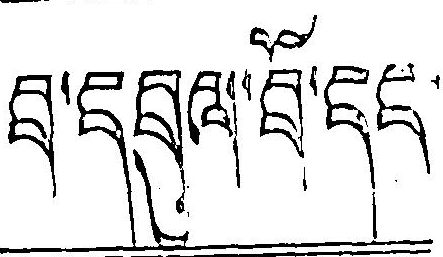བ་དབུལ་བོ་དང་
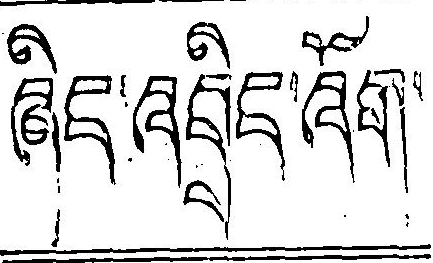ཞིང་འབྲིང་འོག་
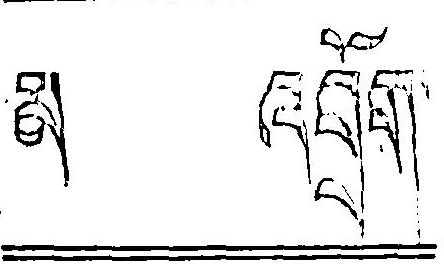མ འབྲོག་
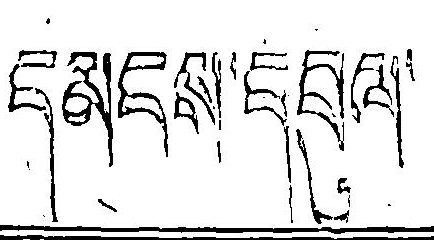དམངས་དབུལ་
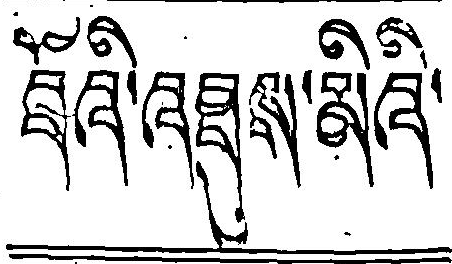བོའི་འཐུས་མིའི་
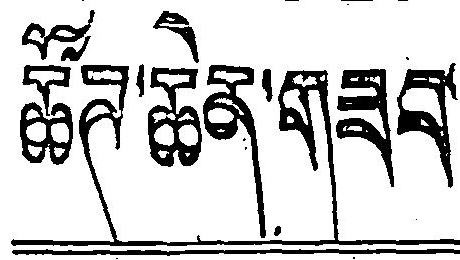ཚོཊ་ཆེན་གཟབ་
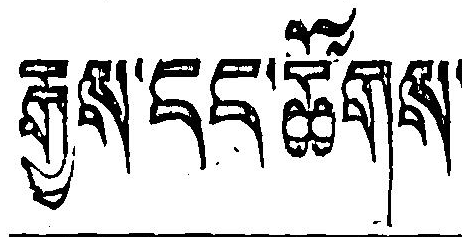རྒྱས་ངང་ཚོགས་
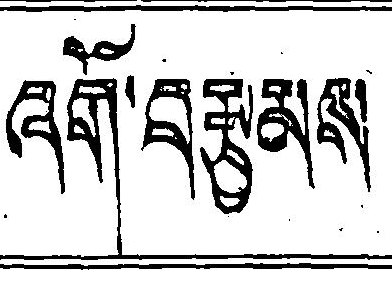འགོ་བརྩམས
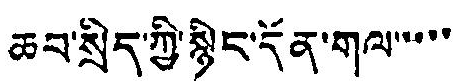ཆབ་སྲིད་ཀྱི་སྙིང་དོན་གལ་་་་་
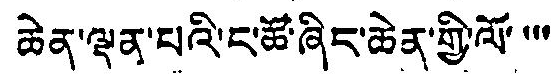ཆེན་ལྡན་པའི་ང་ཚོ་ཞིང་ཆེན་གྱི་ལོ་་་་
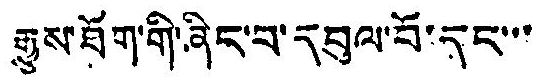རྒྱུས་ཐོག་གི་ཞིང་བ་དབུལ་བོ་དང་་་
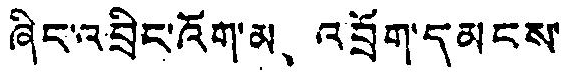ཞིང་འབྲིང་འོག་མ、འབྲོག་དམངས་
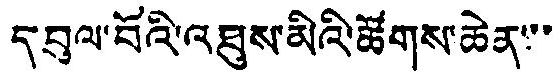དབུལ་བོའི་འཐུས་མིའི་ཚོགས་ཆེན་་་
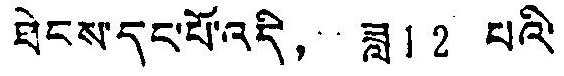ཐེངས་དང་པོ་འདི，ཟླ 12 པའི་
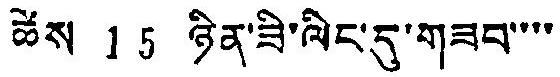ཚེས 15 ཉིན་ཟི་ལིང་དུ་གཟབ་་་་
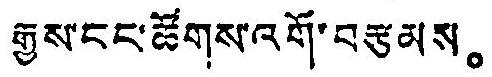རྒྱས་ངང་ཚོགས་འགོ་བརྩམས。
